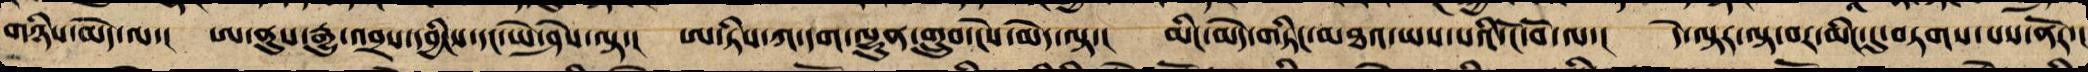གཉིས་མེད་ལ་། ཨ་ནུས་རྒྱུ་འབྲས་དབྱིངས་དང་ཡེ་ཤེས་ལྟ་། ཨ་ཏིས་ཀ་དག་ལྷུན་གྲུབ་ངེས་མེད་ལྟ་། མིང་མེད་གཏིང་མཐའ་ཡས་པའི་ངོ་བོ་ལ་། དེ་ལྟར་ལྟ་བར་མིང་དུ་བཏགས་པས་ནོར་།
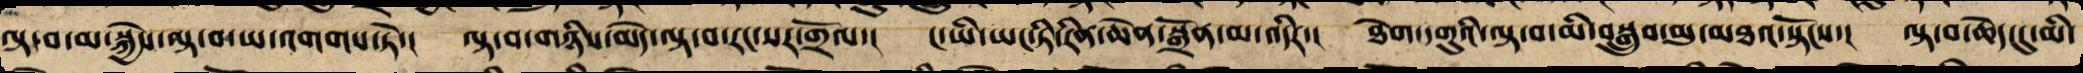ལྟ་བ་མ་སྐྱེས་ལྟ་བ་མ་འགགས་ཏེ་། ལྟ་བ་གཉིས་མེད་ལྟ་བ་རང་སར་གྲོལ་། ང་ཡི་ཡང་ཏི་རིན་ཆེན་སྒྲོན་མ་འདིར་། ཐེག་དགུའི་ལྟ་བ་མི་བསྒྲུབ་མུ་མཐའ་སྟོངས་། ལྟ་བ་ཆེད་དུ་མི་
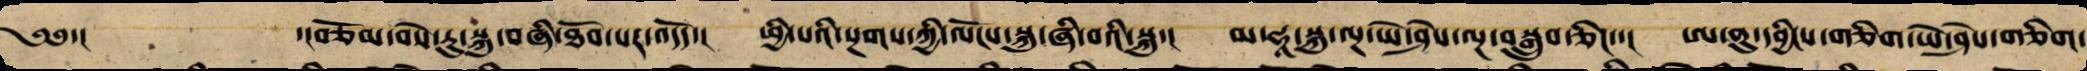༄༅་། ་།བཅོམ་བསེ་རུ་སྐུ་གཞི་ཐོབ་པར་འདོད་། ཕྱི་པའི་སྔགས་ཀྱིས་ལོངས་སྐུ་ཞི་བའི་སྐུ་། མ་ཧཱ་ས་སྐུ་ལྔ་ཡེ་ཤེས་ལྔ་བསྒྲུབ་ཅིང་་། ཨ་ནུས་དབྱིངས་གཅིག་ཡེ་ཤེས་གཅིག་
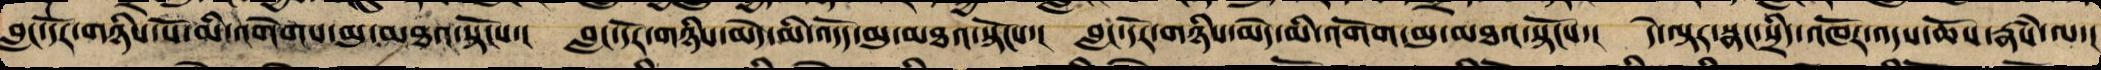བླང་དོར་གཉིས་པོ་མི་འགེག་མུ་མཐའ་སྟོངས་། བླང་དོར་གཉིས་མེད་མི་འདོད་མུ་མཐའ་སྟོངས་། བླང་དོར་གཉིས་མེད་མི་འགོག་མུ་མཐའ་སྟོངས་། དེ་ལྟར་སྣང་སྲིད་འཁོར་འདས་ཆོས་རྣཾས་ལ་།
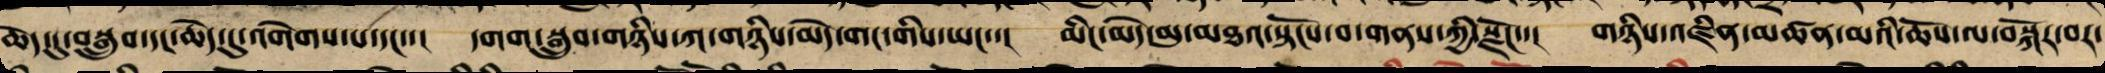ཆེད་དུ་བསྒྲུབ་དང་ཆེད་དུ་འགེགས་པ་དང་་། དགག་སྒྲུབ་གཉིས་ཀ་གཉིས་མེད་གང་གི་ཡང་་། མིང་མེད་མུ་མཐའ་སྟོངས་པ་གནས་ཀྱི་སྫོང་་། གཉིས་འཛིན་མཚན་མའི་ཆོས་ལ་བསྐོར་བར་
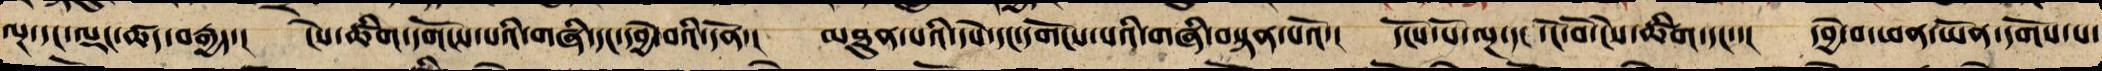ལྔ་དང་ལྡང་ཚད་བརྒྱད་། ངེས་ཚིག་དགོངས་པའི་གཞི་དང་དབྱེ་བའི་དོན་། མཐུན་པའི་དཔེ་དང་དགོས་པའི་གཞི་བསྟན་པའོ་། དངོས་པོ་ལྔ་ནི་ངོ་བོ་ངེས་ཚིག་དང་་། དབྱེ་བ་ཕན་ཡོན་དགོས་པ་
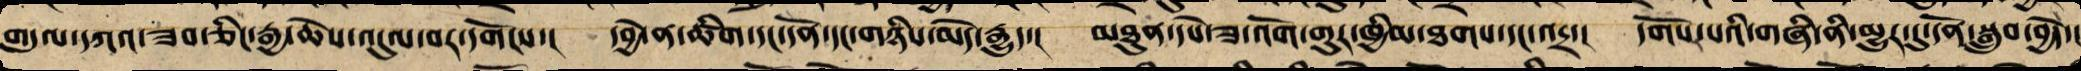གདུལ་དཀའ་ཟབ་ཅིང་རྒྱ་ཆེས་འདུལ་བར་དགོངས་། དབྱེ་ན་ཚིག་དང་དོན་དང་གཉིས་མེད་རྒྱུད་། མཐུན་དཔེ་ཟ་འོག་གུར་ཁྱིམ་ཐགས་དང་འདྲ་། དགོས་པའི་གཞི་ནི་མྱུར་དུ་དོན་སྒྲུབ་བྱེད་།
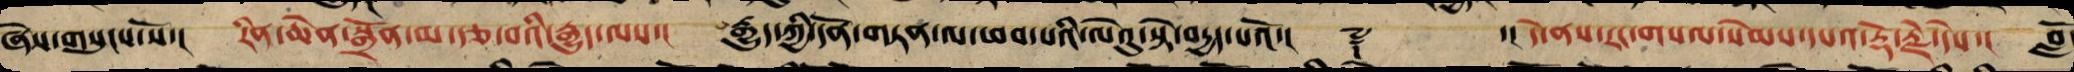ཞེས་གསུངས་སོ་། རིན་ཆེན་སྒྲོན་མ་རྩ་བའི་རྒྱུད་ལས་། རྒྱུད་ཀྱི་དོན་གཏན་ལ་ཕབ་པའི་ལེའུ་སྟེ་བརྒྱད་པའོ་།། ༈ ་། དེ་ནས་རང་གསལ་སེམས་དཔའ་རྡོ་རྗེ་དེས་། བློ་
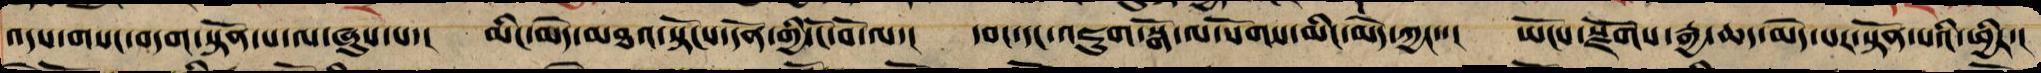འདས་གསང་བདག་སྟོན་པ་ལ་ཞུས་པ་། མིང་མེད་མཐའ་སྟོངས་དོན་གྱི་ངོ་བོ་ལ་། དབང་དང་འཇུག་སྒོ་ལ་སོགས་མིང་མེད་ཀྱང་་། ཡོངས་སྫོགས་རྒྱ་ཆད་མེད་པར་སྟོན་པའི་ཕྱིར་།
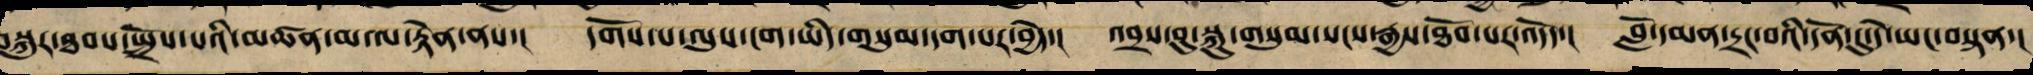བསྐུར་ཐབས་སྤྲོས་པའི་མཚན་མ་ལ་རྟེན་ནས་། དགོས་པ་ལུས་ངག་ཡིད་གསུམ་དག་པར་བྱེད་། འབྲས་བུ་སྐུ་གསུམ་སངས་རྒྱས་ཐོབ་པར་འདོད་། བློ་དམན་དྲང་བའི་དོན་དུ་དེ་ཡང་བསྟན་།
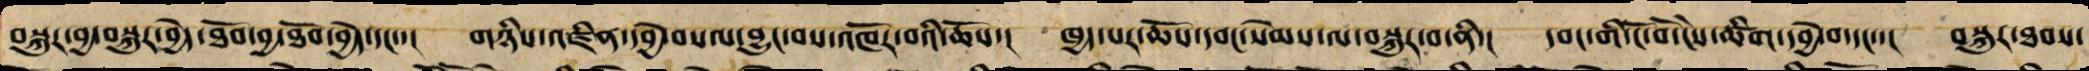བསྐུར་བྱ་སྐུར་བྱེད་ཐོབ་བྱ་ཐོབ་བྱེད་དང་་། གཉིས་འཛིན་དབྱེ་བསལ་བྱུང་བས་འཁོར་བའི་ཆོས་། ཁྱད་པར་ཆོས་དབང་སེམས་ལ་བསྐུར་བ་ནི་། དབང་གི་ངོ་བོ་ངེས་ཚིག་དབྱེ་བ་དང་་། བསྐུར་ཐབས་
